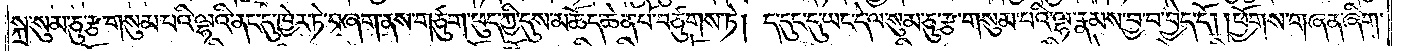སྐྲ་སུམ་ཅུ་རྩ་གསུམ་པའི་ལྷའི་ནང་དུ་ཁྱེར་ཏེ་བཞག་ནས་གཙུག་ཕུད་ཀྱི་དུས་མཆོད་ཆེན་པོ་བཙུགས་ཏེ། ད་དུང་དུ་ཡང་དེ་ལ་སུམ་ཅུ་རྩ་གསུམ་པའི་ལྷ་རྣམས་བྱ་བ་བྱེད་དོ། །ཕྱོགས་གཞན་ཞིག་
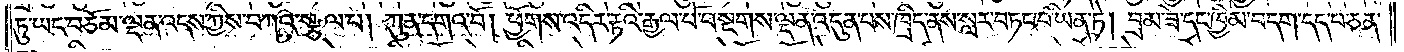ཏུ་ཡང་བཅོམ་ལྡན་འདས་ཀྱིས་བཀའ་སྩལ་པ། ཀུན་དགའ་བོ། ཕྱོགས་འདིར་རྟའི་རྒྱལ་པོ་བསྔགས་ལྡན་འདུན་པས་ཁྲིད་ནས་སླར་བཏང་བ་ཡིན་ཏེ། བྲམ་ཟེ་དང་ཁྱིམ་བདག་དད་པ་ཅན་
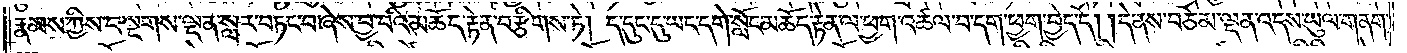རྣམས་ཀྱིས་བསྔགས་ལྡན་སླར་བཏང་བ་ཞེས་བྱ་བའི་མཆོད་རྟེན་བརྩིགས་ཏེ། ད་དུང་དུ་ཡང་དགེ་སློང་མཆོད་རྟེན་ལ་ཕྱག་འཚལ་བ་དག་ཕྱག་བྱེད་དོ། །དེ་ནས་བཅོམ་ལྡན་འདས་ཡུལ་གནག་
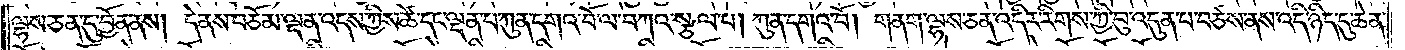ལྷས་ཅན་དུ་བྱོན་ནས། དེ་ནས་བཅོམ་ལྡན་འདས་ཀྱིས་ཚེ་དང་ལྡན་པ་ཀུན་དགའ་བོ་ལ་བཀའ་སྩལ་པ། ཀུན་དགའ་བོ། གནག་ལྷས་ཅན་འདིར་རིགས་ཀྱི་བུ་འདུན་པ་བཙས་ནས་འདི་ཉིད་དུ་ཆེན་
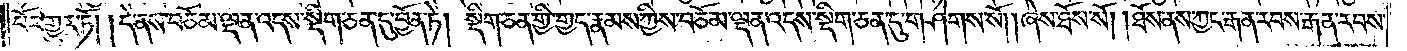པོར་གྱུར་ཏོ། །དེ་ནས་བཅོམ་ལྡན་འདས་སྡིག་ཅན་དུ་བྱོན་ཏེ། སྡིག་ཅན་གྱི་གྱད་རྣམས་ཀྱིས་བཅོམ་ལྡན་འདས་སྡིག་ཅན་དུ་གཤེགས་སོ། །ཞེས་ཐོས་སོ། །ཐོས་ནས་ཀྱང་རྒན་རབས་རྒན་རབས་
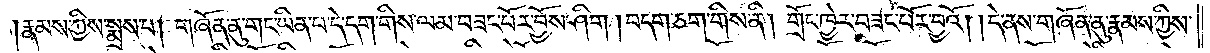།རྣམས་ཀྱིས་སྨྲས་པ། གཞོན་ནུ་གང་ཡིན་པ་དེ་དག་གིས་ལམ་བཟང་པོར་བྱོས་ཤིག །བདག་ཅག་གིས་ནི། གྲོང་ཁྱེར་བཟང་པོར་བྱའོ། །དེ་ནས་གཞོན་ནུ་རྣམས་ཀྱིས་
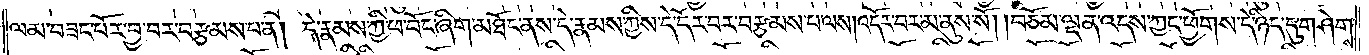ལམ་བཟང་པོར་བྱ་བར་བརྩམས་པ་ན། དེ་རྣམས་ཀྱི་ཕ་བོང་ཞིག་མཐོང་ནས་དེ་རྣམས་ཀྱིས་དེ་དོར་བར་བརྩམས་པ་ལས། འདོར་བར་མ་ནུས་སོ། །བཅོམ་ལྡན་འདས་ཀྱང་ཕྱོགས་དེ་ཉིད་དུ་གཤེགས་
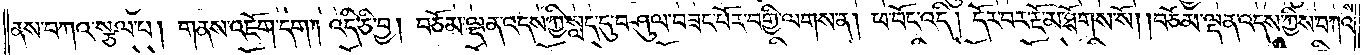ནས་བཀའ་སྩལ་པ། གནས་འཇོག་དག །འདི་ཅི་བྱ། བཅོམ་ལྡན་འདས་ཀྱི་སླད་དུ་བཤུལ་བཟང་པོར་བགྱི་ལགས་ན། ཕ་བོང་འདི། དོར་བར་རྔོ་མ་ཐོགས་སོ། །བཅོམ་ལྡན་འདས་ཀྱིས་བཀའ་
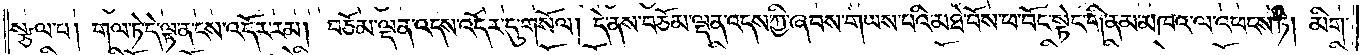སྩལ་པ། གལ་ཏེ་དེ་ལྟ་ན་ངས་འདོར་རམ། བཅོམ་ལྡན་འདས་འདོར་དུ་གསོལ། དེ་ནས་བཅོམ་ལྡན་འདས་ཀྱི་ཞབས་གཡས་པའི་མཐེ་བོས་ཕ་བོང་སྟེང་གི་ནམ་མཁའ་ལ་འཕགས་ཏེ། མིག་
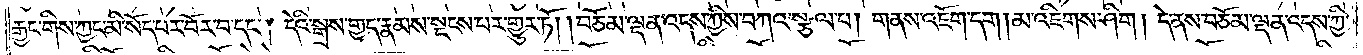རྒྱང་གིས་ཀྱང་མི་སོད་པར་བོར་བ་དང༌། དེའི་སྒྲས་གྱད་རྣམས་སྔངས་པར་གྱུར་ཏོ། །བཅོམ་ལྡན་འདས་ཀྱིས་བཀའ་སྩལ་པ། གནས་འཇོག་དག །མ་འཇིགས་ཤིག། དེ་ནས་བཅོམ་ལྡན་འདས་ཀྱི་
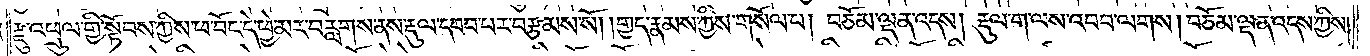རྫུ་འཕྲུལ་གྱི་སྟོབས་ཀྱིས་ཕ་བོང་དེ་ཕྱེ་མར་བརླགས་ནས་རྡུལ་དབབ་པར་བརྩམས་སོ། །གྱད་རྣམས་ཀྱིས་གསོལ་པ། བཅོམ་ལྡན་འདས། རྡུལ་ག་ལས་འབབ་ལགས། བཅོམ་ལྡན་འདས་ཀྱིས།
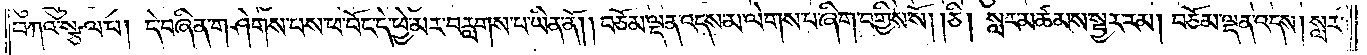བཀའ་སྩལ་པ། དེ་བཞིན་གཤེགས་པས་ཕ་བོང་དེ་ཕྱེ་མར་བརླགས་པ་ཡིན་ནོ། །བཅོམ་ལྡན་འདས་མ་ལེགས་པ་ཞིག་བགྱིས་སོ། །ཅི། སླར་མཚམས་སྦྱར་རམ། བཅོམ་ལྡན་འདས། སླར་
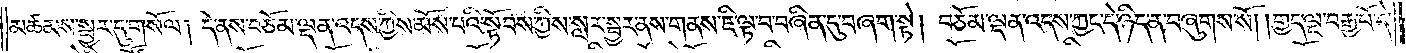མཚམས་སྦྱར་དུ་གསོལ། དེ་ནས་བཅོམ་ལྡན་འདས་ཀྱིས་མོས་པའི་སྟོབས་ཀྱིས་སླར་སྦྱར་ནས་གནས་ཇི་ལྟ་བ་བཞིན་དུ་བཞག་སྟེ། བཅོམ་ལྡན་འདས་ཀྱང་དེ་ཉིད་ན་བཞུགས་སོ། །གྱད་ལྔ་བརྒྱ་པོ་དེ་
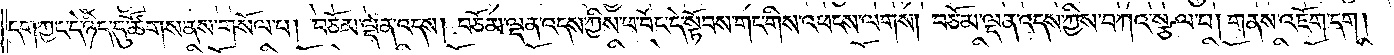དག་ཀྱང་དེ་ཉིད་དུ་ཚོགས་ནས་གསོལ་པ། བཅོམ་ལྡན་འདས། བཅོམ་ལྡན་འདས་ཀྱིས་ཕ་བོང་དེ་སྟོབས་གང་གིས་འཕངས་ལགས། བཅོམ་ལྡན་འདས་ཀྱིས་བཀའ་སྩལ་པ། གནས་འཇོག་དག་
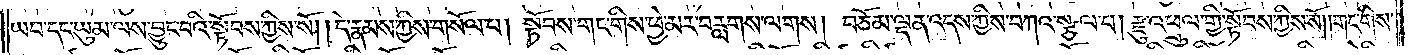ཡབ་དང་ཡུམ་ལས་བྱུང་བའི་སྟོབས་ཀྱིས་སོ། །དེ་རྣམས་ཀྱིས་གསོལ་པ། སྟོབས་གང་གིས་ཕྱེ་མར་བརླགས་ལགས། བཅོམ་ལྡན་འདས་ཀྱིས་བཀའ་སྩལ་པ། རྫུ་འཕྲུལ་གྱི་སྟོབས་ཀྱིས་སོ། །གང་གིས་
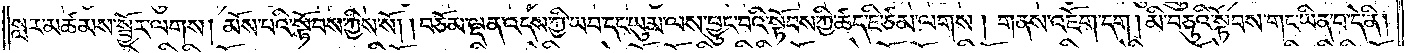སླར་མཚམས་སྦྱོར་ལགས། མོས་པའི་སྟོབས་ཀྱིས་སོ། །བཅོམ་ལྡན་འདས་ཀྱི་ཡབ་དང་ཡུམ་ལས་བྱུང་བའི་སྟོབས་ཀྱི་ཚད་ཇི་ཙམ་ལགས། གནས་འཇོག་དག །མི་བཅུའི་སྟོབས་གང་ཡིན་པ་དེ་ནི།
